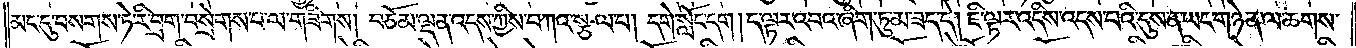མང་དུ་བསགས་ཏེ་རི་བྲག་བསྲེགས་པ་ལ་གཟིགས། བཅོམ་ལྡན་འདས་ཀྱིས་བཀའ་སྩལ་པ། དགེ་སློང་དག །ད་ལྟར་འབའ་ཞིག་ཏུ་མ་ཟད་དེ། ཇི་ལྟར་འདིས་འདས་པའི་དུས་ན་ཡང་གཉེན་ལ་ཆགས་
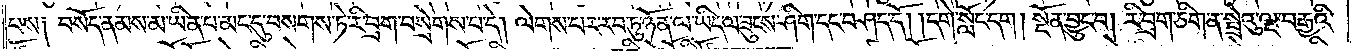པས། བསོད་ནམས་མ་ཡིན་པ་མང་དུ་བསགས་ཏེ་རི་བྲག་བསྲེགས་པ་དེ། ལེགས་པར་རབ་ཏུ་ཉོན་ལ་ཡིད་ལ་ཟུངས་ཤིག་དང་བཤད་དོ། །དགེ་སློང་དག །སྔོན་བྱུང་བ། རི་བྲག་ཅིག་ན་སྤྲེའུ་ལྔ་བརྒྱའི་
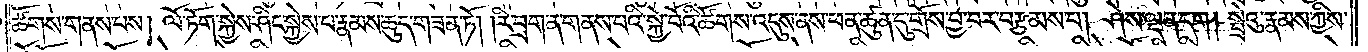ཚོགས་གནས་པས། ལོ་ཏོག་སྐྱེས་ཤིང་སྐྱེས་པ་རྣམས་ཆུད་གཟན་ཏོ། །རི་བྲག་ན་གནས་པའི་སྐྱེ་བོའི་ཚོགས་འདུས་ནས་ཕན་ཚུན་དུ་གྲོས་བྱ་བར་བརྩམས་པ། ཤེས་ལྡན་དག །སྤྲེའུ་རྣམས་ཀྱིས་
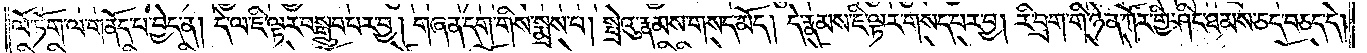ལོ་ཏོག་ལ་གནོད་པ་བྱེད་ན། དེ་ལ་ཇི་ལྟར་བསྒྲུབ་པར་བྱ། གཞན་དག་གིས་སྨྲས་པ། སྤྲེའུ་རྣམས་གསད་མོད། དེ་རྣམས་ཇི་ལྟར་གསད་པར་བྱ། རི་བྲག་གི་ཉེན་ཀོར་གྱི་ཤིང་ཐམས་ཅད་བཅད་དེ།
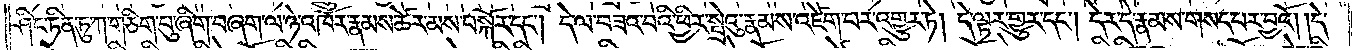ཤིང་ཏིན་ཏུ་ཀ་གཅིག་པུ་ཞིག་བཞག་ལ་ཉེ་འཁོར་རྣམས་ཚེར་མས་བསྐོར་དང༌། དེ་ལ་བཟའ་བའི་ཕྱིར་སྤྲེའུ་རྣམས་འཛེག་པར་འགྱུར་ཏེ། དེ་ལྟར་གྱུར་དང༌། དེར་དེ་རྣམས་གསད་པར་བྱའོ། །དེ་
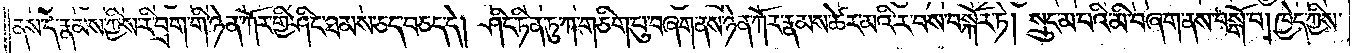ནས་དེ་རྣམས་ཀྱིས་རི་བྲག་གི་ཉེན་ཀོར་གྱི་ཤིང་ཐམས་ཅད་བཅད་དེ། ཤིང་ཏིན་ཏུ་ཀ་གཅིག་པུ་བཞག་ནས་ཉེན་ཀོར་རྣམས་ཚེར་མའི་ར་བས་བསྐོར་ཏེ། སྲུང་མ་པའི་མི་བཞག་ནས་བསྒོ་བ། ཁྱེད་ཀྱིས་
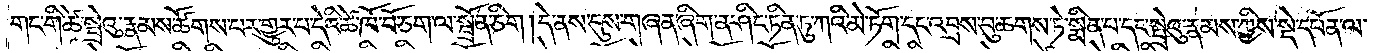གང་གི་ཚེ་སྤྲེའུ་རྣམས་ཚོགས་པར་གྱུར་པ་དེའི་ཚེ་ཁོ་བོ་ཅག་ལ་སྦྲོན་ཅིག །དེ་ནས་དུས་གཞན་ཞིག་ན་ཤིང་ཏིན་ཏུ་ཀའི་མེ་ཏོག་དང་འབྲས་བུ་ཆགས་ཏེ་སྨིན་པ་དང་སྤྲེའུ་རྣམས་ཀྱིས་སྡེ་དཔོན་ལ་
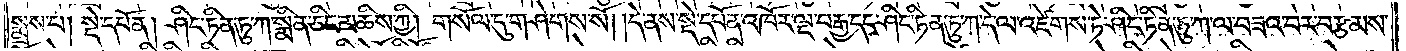སྨྲས་པ། སྡེ་དཔོན། ཤིང་ཏིན་ཏུ་ཀ་སྨིན་ཅིང་མཆིས་ཀྱི། གསོལ་དུ་གཤེགས་སོ། །དེ་ནས་སྡེ་དཔོན་འཁོར་ལྔ་བརྒྱ་དང་ཤིང་ཏིན་ཏུ་ཀ་དེ་ལ་འཛེགས་ཏེ་ཤིང་ཏིན་ཏུ་ཀ་ལ་བཟའ་བར་བརྩམས་
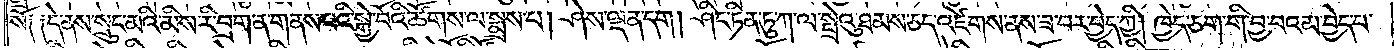སོ༑ ༑དེ་ནས་སྲུང་མའི་མིས་རི་བྲག་ན་གནས་པའི་སྐྱེ་བོའི་ཚོགས་ལ་སྨྲས་པ། ཤེས་ལྡན་དག །ཤིང་ཏིན་ཏུ་ཀ་ལ་སྤྲེའུ་ཐམས་ཅད་འཛེགས་ནས་ཟ་བར་བྱེད་ཀྱི། ཁྱེད་ཅག་གི་བྱ་བའམ་བྱེད་པ་
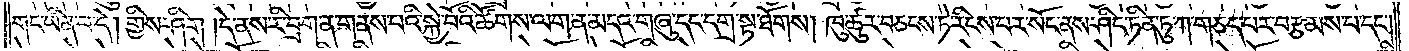གང་ཡིན་པ་དེ། གྱིས་ཤིག །དེ་ནས་རི་བྲག་ན་གནས་པའི་སྐྱེ་བོའི་ཚོགས་ལག་ན་མདའ་གཞུ་དང་དགྲ་སྟ་ཐོགས། ཁུ་ཚུར་བཅངས་ཏེ་རིངས་པར་སོང་ནས་ཤིང་ཏིན་ཏུ་ཀ་གཅད་པར་བརྩམས་པ་དང༌།
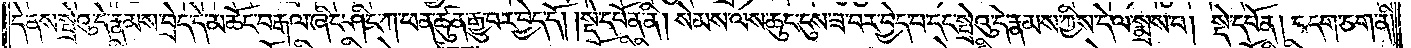དེ་ནས་སྤྲེའུ་དེ་རྣམས་བྲེད་དེ་མཆོང་བརྒལ་ཞིང་ཤིང་ཀ་ཕན་ཚུན་རྒྱུ་བར་བྱེད་དོ། །སྡེ་དཔོན་ནི། སེམས་ལས་ཆུང་ངུས་ཟ་བར་བྱེད་པ་དང་སྤྲེའུ་དེ་རྣམས་ཀྱིས་དེ་ལ་སྨྲས་པ། སྡེ་དཔོན། བདག་ཅག་ནི།
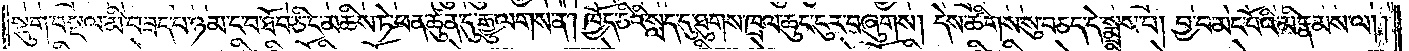སྡུག་བསྔལ་མི་བཟད་པ་ཉམ་ང་བ་ཐོབ་ཅིང་མཆིས་ཏེ་ཕན་ཚུན་དུ་རྒྱུ་ལགས་ན། ཁྱོད་ཅིའི་སླད་དུ་ཐུགས་ཁྲལ་ཆུང་ངུར་བཞུགས། དེས་ཚིགས་སུ་བཅད་དེ་སྨྲས་པ། བྱ་བ་མང་པོའི་མི་རྣམས་ལ། །
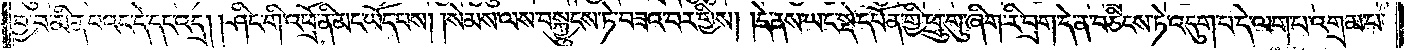བྱ་བ་མིན་པའང་དེ་དང་འདྲ། །ཤིང་གི་འཕྲོ་ནི་མང་ཡོད་པས། །སེམས་ལས་བསྐྱུངས་ཏེ་བཟའ་བར་གྱིས། །དེ་ནས་ཡང་སྡེ་དཔོན་གྱི་ཕྲུ་གུ་ཞིག་རི་བྲག་དེ་ན་བཅིངས་ཏེ་འདུག་པ་དེ་ལག་པ་འགྲམ་པ་
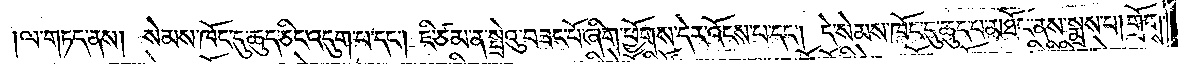།ལ་གཏད་ནས། སེམས་ཁོང་དུ་ཆུད་ཅིང་འདུག་པ་དང༌། ཇི་ཙམ་ན་སྤྲེའུ་བཟང་པོ་ཞིག་ཕྱོགས་དེར་འོངས་པ་དང༌། དེ་སེམས་ཁོང་དུ་ཆུད་པ་མཐོང་ནས་སྨྲས་པ། གྲོགས་
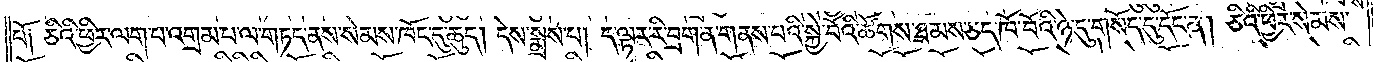པོ༑ ཅིའི་ཕྱིར་ལག་པ་འགྲམ་པ་ལ་གཏད་ནས་སེམས་ཁོང་དུ་ཆུད། དེས་སྨྲས་པ། ད་ལྟར་རི་བྲག་ན་གནས་པའི་སྐྱེ་བོའི་ཚོགས་ཐམས་ཅད་ཁོ་བོའི་ཉེ་དུ་གསོད་དུ་དོང་ན། ཅིའི་ཕྱིར་སེམས་
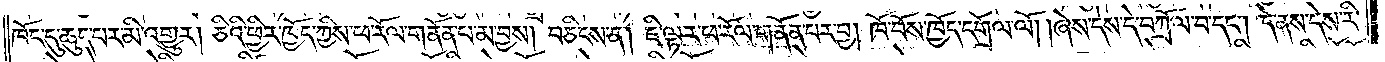ཁོང་དུ་ཆུད་པར་མི་འགྱུར། ཅིའི་ཕྱིར་ཁྱོད་ཀྱིས་ཕ་རོལ་གནོན་པ་མ་བྱས། བཅིངས་ན། ཇི་ལྟར་ཕ་རོལ་གནོན་པར་བྱ། ཁོ་བོས་ཁྱོད་དགྲོལ་ལོ། །ཞེས་དེས་དེ་བཀྲོལ་བ་དང༌། དེ་ནས་དེས་རི་
